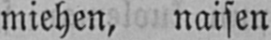miehen, naisen
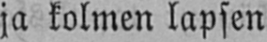ja kolmen lapsen
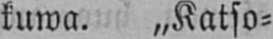kuwa. „Katso-
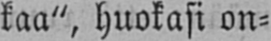kaa", huokasi on-
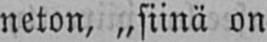neton, „siinä on
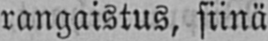rangaistus, siinä
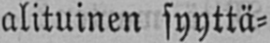alituinen syyttä-
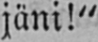jäni!"
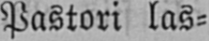Pastori las-
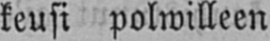keusi polwilleen
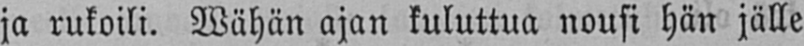ja rukoili. Wähän ajan kuluttua nousi hän jälle
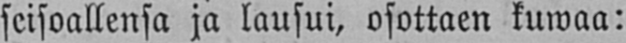seisoallensa ja lausui, osottaen kuwaa:
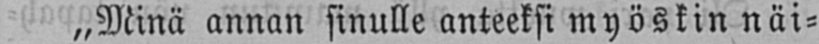„Minä annan sinulle anteeksi myöskin näi-
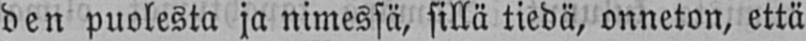den puolesta ja nimessä, sillä tiedä, onneton, että
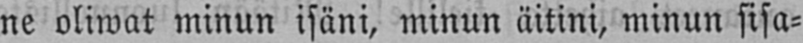ne oliwat minun isäni, minun äitini, minun sisa-
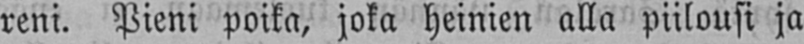reni. Pieni poika, joka heinien alla piilousi ja
